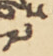༧
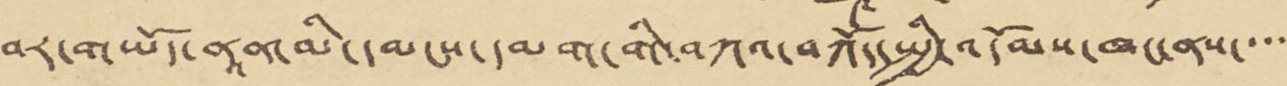བར་གཡོད་ནཱན་མི་དམངས་དམག་གི་བཀའ་བཀོད་སྤྱི་འདོམས་ཁང་ནས་་་་
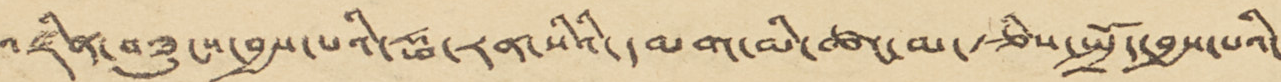འཛིན་བཟུངས་བྱས་པའི་ཧྥ་རན་སིའི་དམག་མི་ཚང་མ་རྩིས་སྤྲོད་བྱས་པའི་
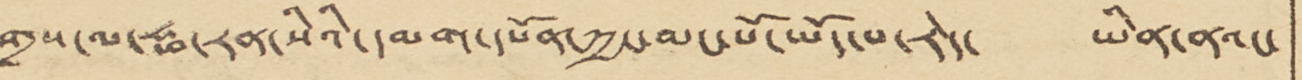གྲས་ལ་ཧྥ་རན་སིའི་དམག་དཔོན་ཀྱང་མང་པོ་ཡོད་པ་རེད་ ཡིན་ནའང་
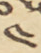༤
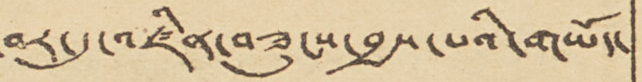བར་དུ་འཛིན་བཟུངས་བྱས་པའི་གཡོད་
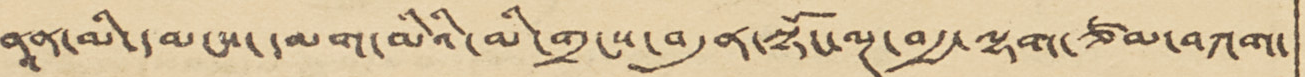ནཱན་མི་དམངས་དམག་མིའི་མི་གྲངས་བདུན་སྟོང་ལྔ་བརྒྱ་ལྷག་ཙམ་བཀག་
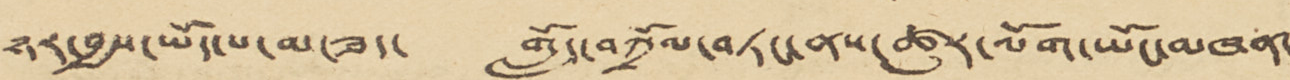ཉར་བྱས་ཡོད་པ་མ་ཟད་ གློད་བཀྲོལ་བཏང་ནས་ཚུར་ལོག་ཡོང་མཁན་
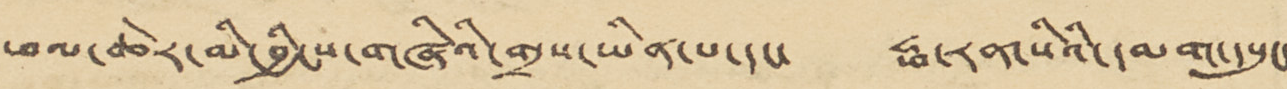ཕལ་ཆེར་མི་བྱིངས་གཞིའི་གྲས་ཡིན་པ་དང་ ཧྥ་རན་སིའི་དམག་དཔུང་
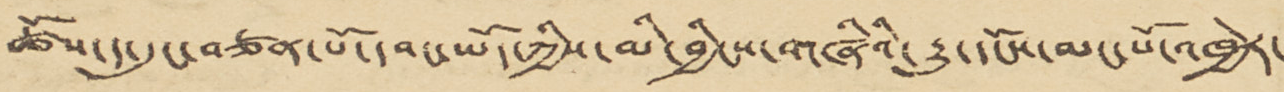ཚོས་ད་དུང་བཙན་པོ་དབང་ཡོད་ཀྱིས་མི་བྱིངས་གཞིའི་རྒྱུ་དངོས་མང་པོ་འཁྱེར་
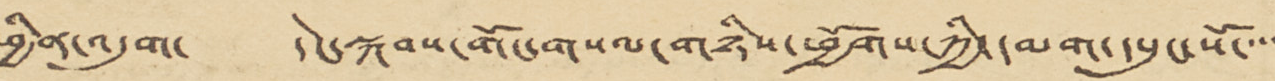ཕྱིན་འདུག་ དེང་སྐབས་གོང་གསལ་གཉིས་ཕྱོགས་ཀྱི་དམག་དཔུང་སོ་་་་
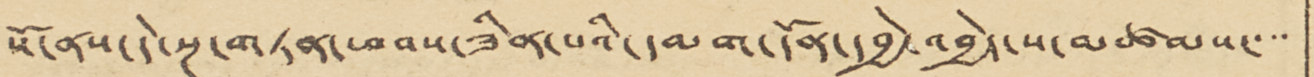སོ་ནས་དེ་སྔ་གཏན་ཕབས་ཟིན་པའི་དམག་དོན་དབྱེ་འབྱེད་ས་མཚམས་་་་
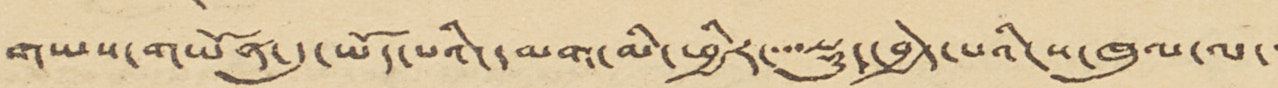གཡས་གཡོན་དུ་ཡོད་པའི་དམག་མི་ཕྱིར་་་་སྡུད་བྱེད་པའི་ས་ཁུལ་ལ་་་
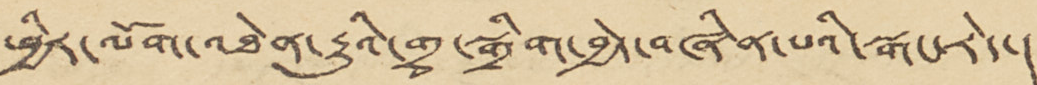ཕྱིར་ལོག་འཐེན་རྒྱུའི་གྲྭ་སྒྲིག་བྱེད་བཞིན་པའི་སྒང་རེད་།
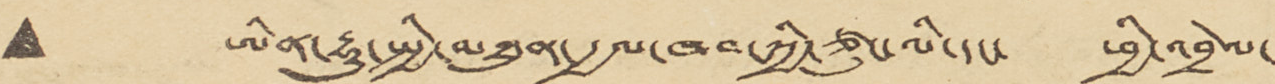• ཨིན་རྷུ་སྤྱི་མཐུན་རྒྱལ་ཁབ་ཀྱི་ཙུང་ལི་དང་ ཕྱི་འབྲེལ་
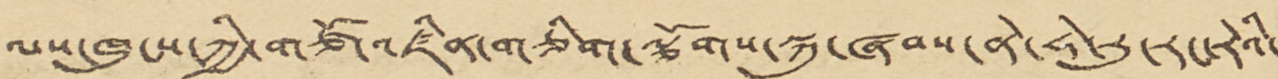ལས་ཁུངས་ཀྱི་གཙོ་འཛིན་གཅིག་ལྕོགས་སྐུ་ཞབས་ནེ་ཧེ་རུ་རང་རེའི་
